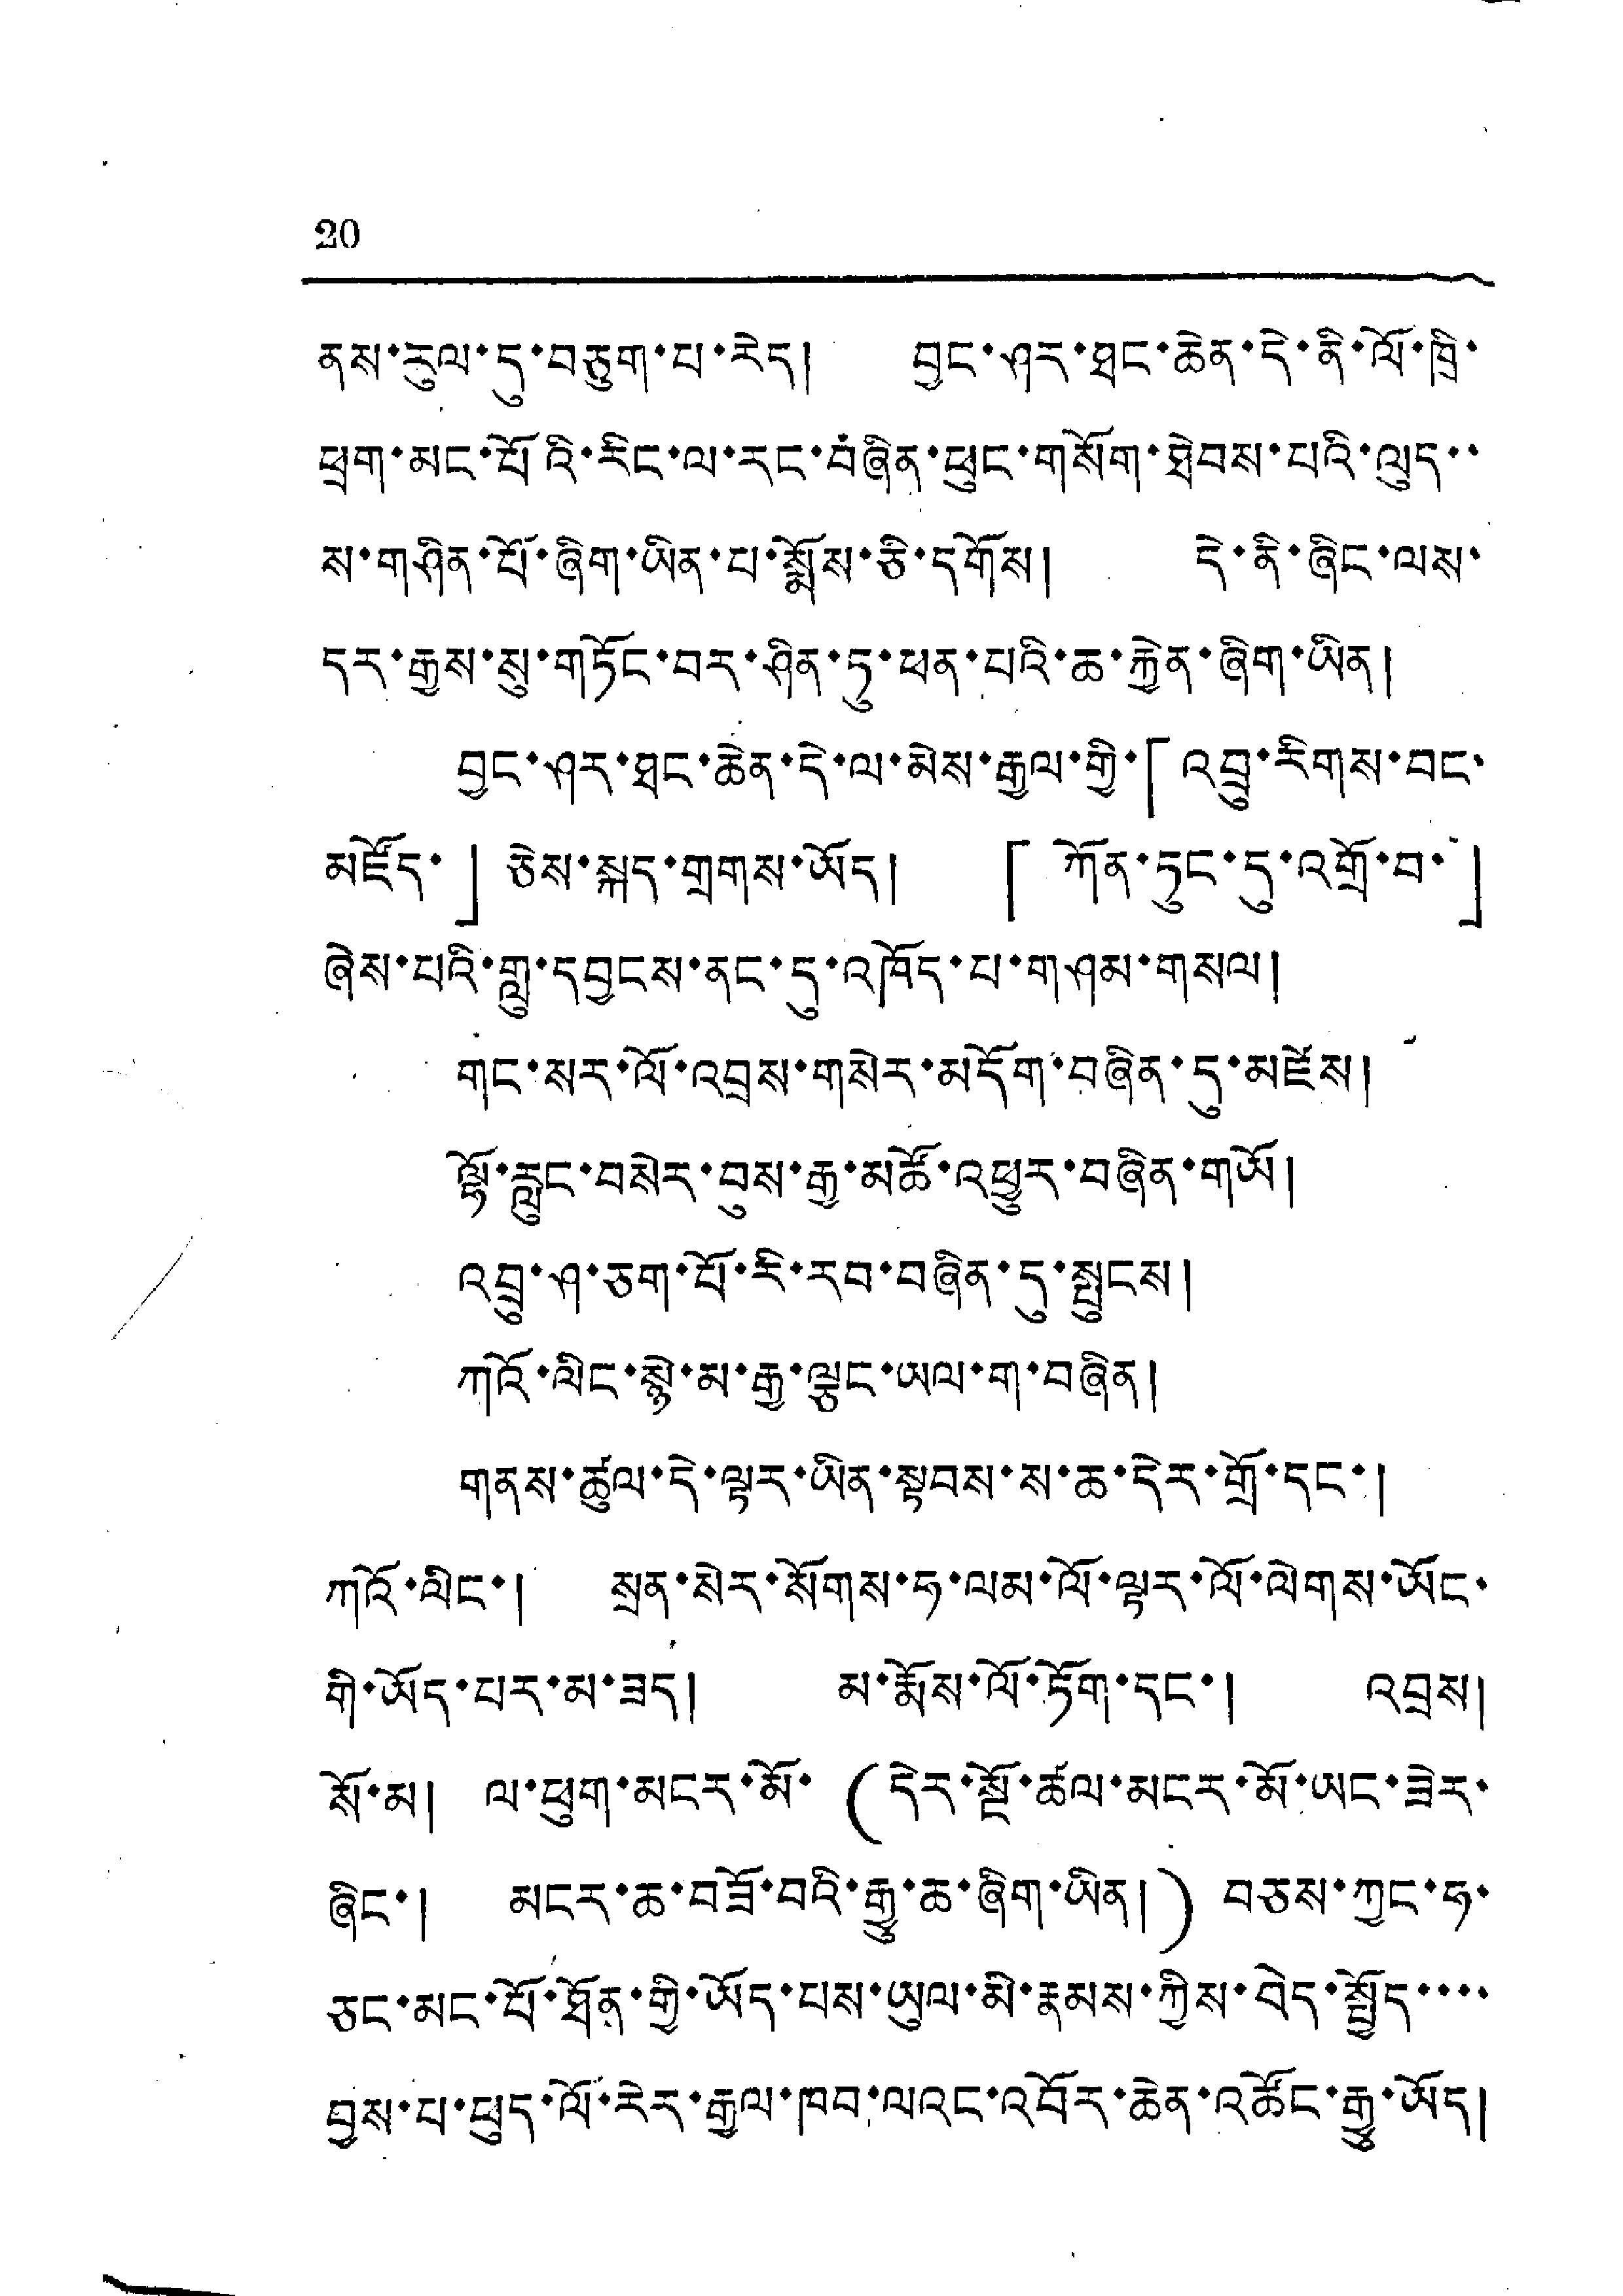20
ནས་རུལ་དུ་བཅུག་པ་རེད། བྱང་ཤར་ཐང་ཆེན་དེ་ནི་ལོ་ཁྲི་
ཕྲག་མང་པོའི་རིང་ལ་རང་བཞིན་ཕུང་གསོག་ཐེབས་པའི་ལུད་་
ས་གཤིན་པོ་ཞིག་ཡིན་པ་སྨོས་ཅི་དགོས། དེ་ནི་ཞིང་ལས་
དར་རྒྱས་སུ་གཏོང་བར་ཤིན་ཏུ་ཕན་པའི་ཆ་རྐྱེན་ཞིག་ཡིན།
བྱང་ཤར་ཐང་ཆེན་དེ་ལ་མེས་རྒྱལ་གྱི་「འབྲུ་རིགས་བང་
མཛོད་」ཅེས་སྐད་གྲགས་ཡོད། 「ཀོན་ཏུང་དུ་འགྲོ་བ་」
ཞེས་པའི་གླུ་དབྱངས་ནང་དུ་འཁོད་པ་གཤམ་གསལ།
གང་སར་ལོ་འབྲས་གསེར་མདོག་བཞིན་དུ་མཛེས།
ལྷོ་རླུང་བསེར་བུས་རྒྱ་མཚོ་འཕྱུར་བཞིན་གཡོ།
འབྲུ་ཤ་ཅག་པོ་རི་རབ་བཞིན་དུ་སྤུངས།
ཀའོ་ལིང་སྙེ་མ་རྒྱུ་ལྕང་ཡལ་ག་བཞིན།
གནས་ཚུལ་དེ་ལྟར་ཡིན་སྟབས་ས་ཆ་དེར་གྲོ་དང་
ཀའོ་ལིང་། སྲན་སེར་སོགས་ཧ་ལམ་ལོ་ལྟར་ལོ་ལེགས་ཡོང་
གི་ཡོད་པར་མ་ཟད། མ་རྨོས་ལོ་ཏོག་དང་། འབྲས།
སོ་མ། ལ་ཕུག་མངར་མོ་ (དེར་སྔོ་ཚལ་མངར་མོ་ཡང་ཟེར།
ཞིང་། མངར་ཆ་བཟོ་བའི་རྒྱུ་ཆ་ཞིག་ཡིན།) བཅས་ཀྱང་ཧ་
ཅང་མང་པོ་ཐོན་གྱི་ཡོད་པས་ཡུལ་མི་རྣམས་ཀྱིས་བེད་སྤྱོད་་་་
བྱས་པ་ཕུད་ལོ་རེར་རྒྱལ་ཁབ་ལའང་འབོར་ཆེན་འཚོང་རྒྱུ་ཡོད།
